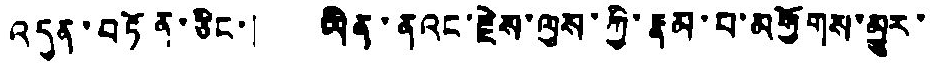འདུན་བཏོན་ཅིང་། ཡིན་ནའང་རྗེས་ལུས་ཀྱི་རྣམ་པ་མགྱོགས་མྱུར་
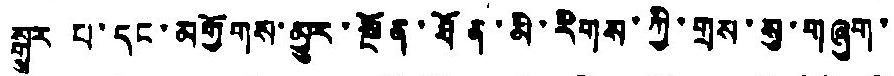སྒྱུར པ་དང་མགྱོགས་མྱུར་སྔོན་ཐོན་མི་རིགས་ཀྱི་གྲས་སུ་གཞུག་
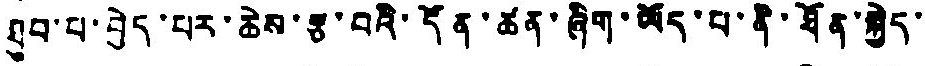ཐུབ་པ་བྱེད་པར་ཆེས་རྩ་བའི་དོན་ཚན་ཞིག་ཡོད་པ་ནི་ཐོན་སྐྱེད་
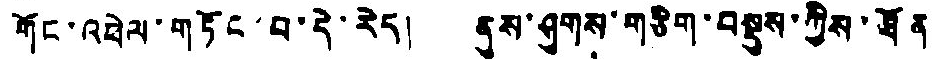གོང་འཕེལ་གཏོང་བ་དེ་རེད། ནུས་ཤུགས་གཅིག་བསྡུས་ཀྱིས་ཐོན
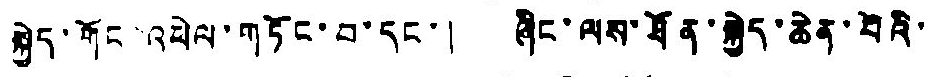སྐྱེད་གོང འཕེལ་གཏོང་བ་དང་། ཞིང་ལས་ཐོན་སྐྱེད་ཆེན་པོའི་
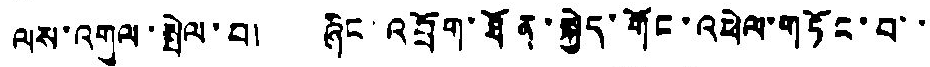ལས་འགུལ་སྤེལ་བ། ཞིང འབྲོག་ཐོན་སྐྱེད་གོང་འཕེལ་གཏོང་བ་་
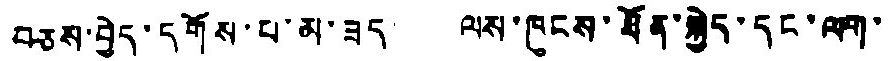བཅས་བྱེད་དགོས་པ་མ་ཟད། ལས་ཁུངས་ཐོན་སྐྱེད་དང་ལག་
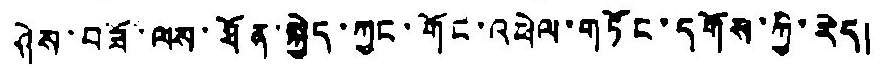ཤེས་བཟོ་ལས་ཐོན་སྐྱེད་ཀྱང་གོང་འཕེལ་གཏོང་དགོས་ཀྱི་རེད།
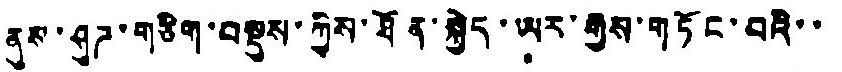ནུས་ཤུཌ་གཅིག་བསྡུས་ཀྱིས་ཐོན་སྐྱེད་ཡར་རྒྱས་གཏོང་བའི་་
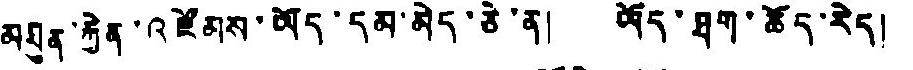མཐུན་རྐྱེན་འཛོམས་ཡོད་དམ་མེད་ཅེ་ན། ཡོད་ཐག་ཆོད་རེད།
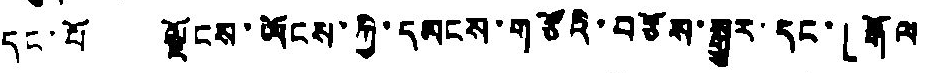དང་པོ ལྗོངས་ཡོངས་ཀྱི་དམངས་གཙོའི་བཙོས་སྒྱུར་དང་「རྒོལ
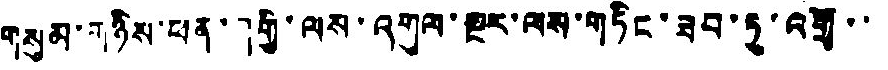གསུམ་གཉིས་ཕན་」གྱི་ལས་འགུལ་སྔར་ལས་གཏིང་ཟབ་ཏུ་འགྲོ་་
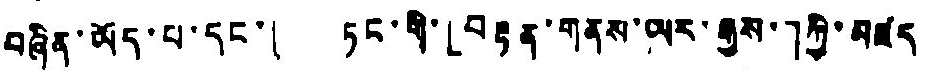བཞིན་ཡོད་པ་དང་། ཏང་གི་「བརྟན་གནས་ཡར་རྒྱས་」ཀྱི་མཛད
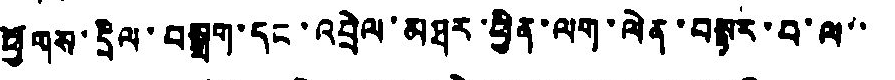ཕྱོགས་དྲིལ་བསྒྲག་དང་འབྲེལ་མཐར་ཕྱིན་ལག་ལེན་བསྟར་བ་ལ་་
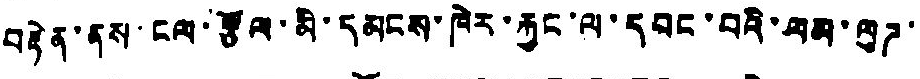བརྟེན་ནས་ངལ་རྩོལ་མི་དམངས་ཁེར་རྐྱང་ལ་དབང་བའི་ལམ་ལུཌ་
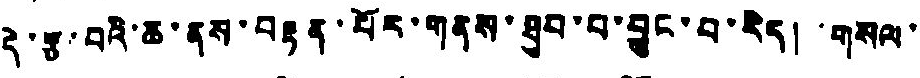རྡེ་རྩ་བའི་ཆ་ནས་བརྟན་པོར་གནས་ཐུབ་པ་བྱུང་བ་རེད། གསལ་
